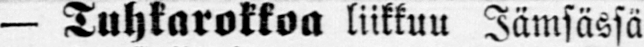— Tuhkarokkoa liikkuu Jämsässä
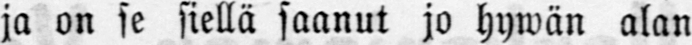ja on se siellä saanut jo hywän alan
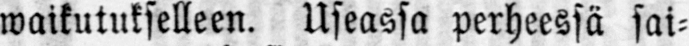waikutukselleen. Useassa perheessä sai-
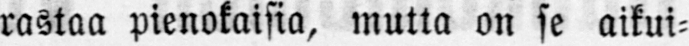rastaa pienokaisia, mutta on se aikui-
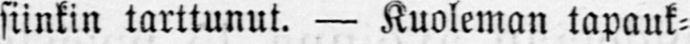siinkin tarttunut. — Kuoleman tapauk-
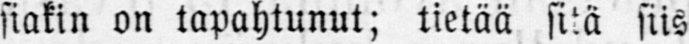siakin on tapahtunut; tietää sitä siis
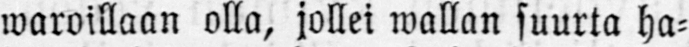waroillaan olla, jollei wallan suurta ha-
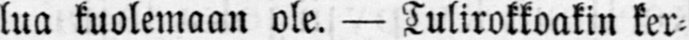lua kuolemaan ole. — Tulirokkoakin ker-
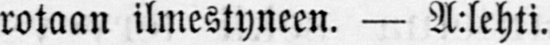rotaan ilmestyneen. — A:lehti.
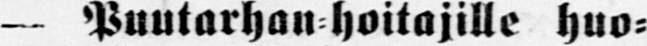- Puutarhan hoitajille huo-
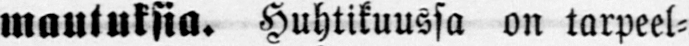mautuksia. Huhtikuussa on tarpeel-
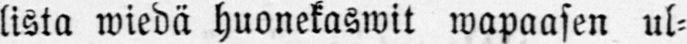lista wiedä huonekaswit wapaasen ul-
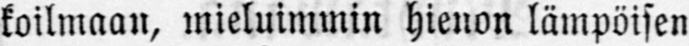koilmaan, mieluimmin hienon lämpöisen
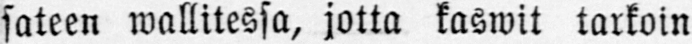sateen wallitessa, jotta kaswit tarkoin
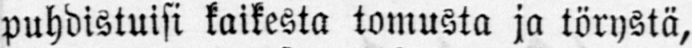puhdistuisi kaikesta tomusta ja törystä,
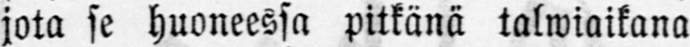jota se huoneessa pitkänä talwiaikana
